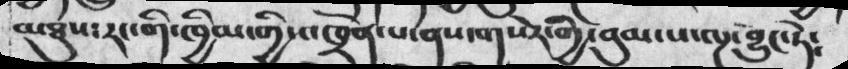མཐུས་རང་གི་ཁྱིམ་གྱིས་ཁྲོན་པ་ནས་གསེར་གྱི་བུམ་པ་ལྔ་བྱུང་ཏེ༴
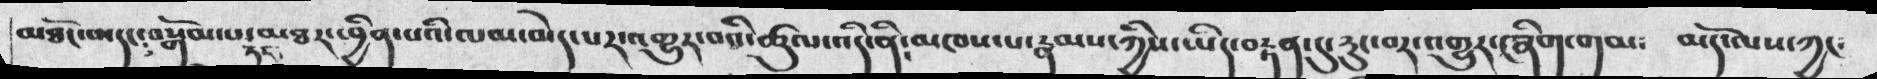མཐོང་བ་དང་བསྒོམ་པ་དང་མཐར་བྱིན་པའི་ལམ་མེད་པར་འགྱུར་བའི་ཚུལ་འདི་ནི༴མཁས་པ་རྣམས་ཀྱིས་ཡིད་བརྟན་དུ་རུང་བར་འགྱུར་ཞིག་གམ༴   མདོ་ལས་ཀྱང༴
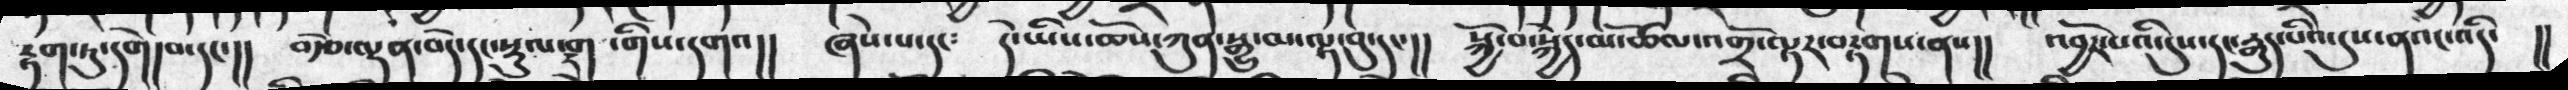རྟག་ཏུ་དགེ་།བ་དང་།།  རྩེ་ལྡན་བདེ་དང་སྡུལ་དྲག་གིས་དགའ།། ཞེས་པ་དང༴ དེ་ཡིས་ཆོས་ཀུན་སྒྱུ་མ་ལྟ་བུ་དང་།།  སྐྱོ་བ་སྐྱེད་མ་ཚོལ་འགྲོ་ལྟར་བརྟགས་ནས།།   འབྱོར་པའི་དུས་དང་རྒྱུད་པའི་དུས་ནའངའདི་  །།
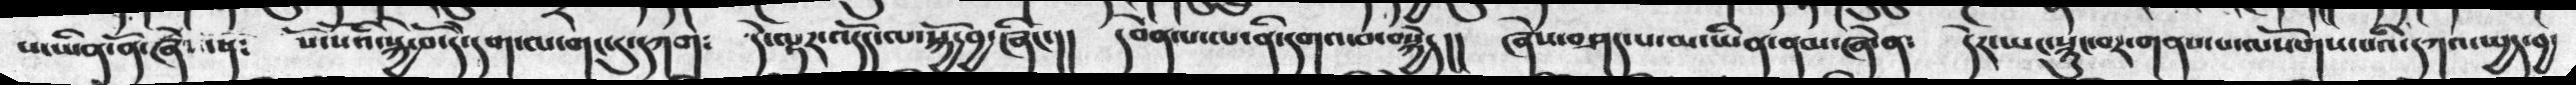པ་ཡིན་ནོ་ཞེས་ན༴   སོ་སོའི་སྐྱེ་བོ་དེ་དག་ལ་གང་དུ་དཀག༴    དེ་ལྟར་འདོད་ལ་འདོད་ལ་སྐྱོ་བྱ་ཞིང་།།  དབེན་པ་ལ་ནི་དགའ་བ་བསྐྱེད།།   ཞེས་བཤད་པ་མ་ཡིན་ནམ་ཞེ་ན་    དེར་ཡང་སྙུང་པར་གནས་པ་ལསོགས་པའི་དཀའ་ཡྱད་བྱ་
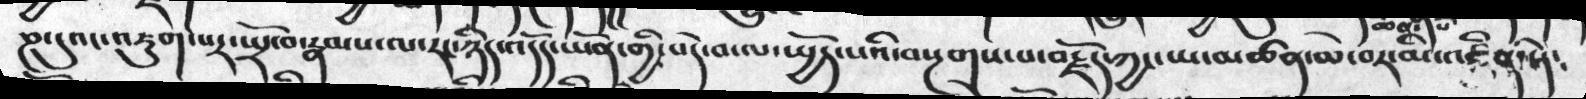ཎ་དུའང་འཇུག་པར་སྤྲོ་བ་རྣམས་པ་ལ་རང་ཉིད་འདོད་ཡོན་གྱི་བདེ་བ་ལ་ཡྱོད་པའི་བསྔགས་པ་བརྗོད་ཀྱང་ཡ་མཚན་མེ་བར་མི་འཛིན་ཏེ༴
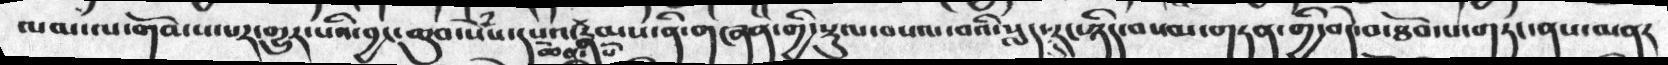ལམ་ལ་གོམས་པར་གྱུར་པའི་བྱང་ཆུབ་སེཾས་དཔའ་ཆེན་པོ་རྣམས་ནི་གཞན་གྱི་སྡུལ་བསལ་བའི་སླད་དུ་རང་ཉིད་བསམ་གཏན་གྱི་བདེ་བ་ཐོབ་པ་གཏང་ནས་མནར་
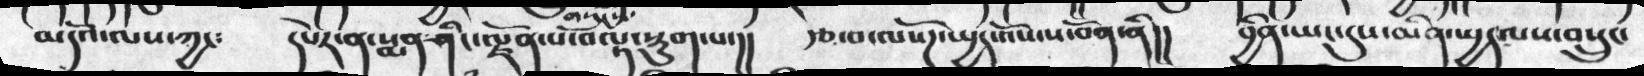མདོའ་ལས་ཀྱང༴    དཔེར་ན་སྨན་ཤིང་ལྗོན་པ་བལྟ་སྡུག་པ་།།    རྩ་བ་ལསོཌ་ཡྱད་འོས་ས་བོན་ནི།།   བྱིན་ཡང་དུས་མིན་ཡྱད་ལས་བསྲུང་
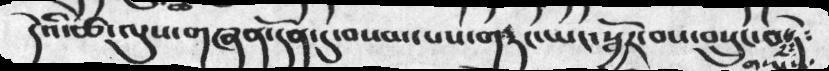དེའི་ཚ་ལུས་གཞན་དོན་དུ་བསམ་པས་གཏང་ཡང་སྦྱོར་བས་བསྲུང་བར་གསང་སྟེ་
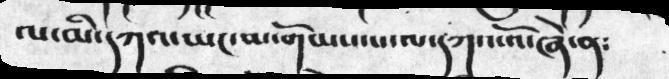ལ་མི་དཀའ་ཡང་མ་གོམས་པ་ལ་དཀའ་འོ་ཞེ་ན༴
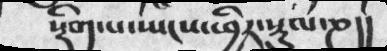སྡིག་པ་སྤངས་ཕྱིར་སྡུལ་ཎ།།
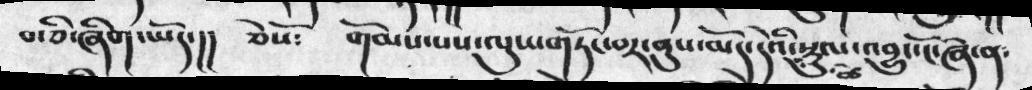པ་ཅི་ཞིག་ཡོད་།།   ཅེསོ༴    གོམས་པས་ལུས་གཏོང་བར་ནུས་མོད་དེའི་སྡུལ་ཚེ་འབྱུང་ངོ་ཞེ་ན༴
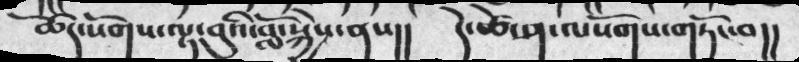ཆོད་སོགས་ལྟ་བུའི་བློ་སྐྱེས་ནས།། དེ་ཚེ་ཤ་ལསོགས་གཏོང་བ།།
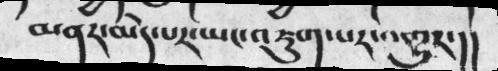མནར་མེད་པར་ཡང་འཇུག་པར་འགྱུར་།།
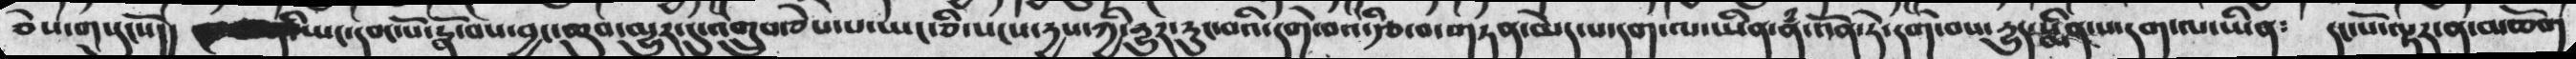ཅེས་གསུངསོ།།   ཡང་དབང་པོ་རྣོ་བས་བྱང་ཆུབ་མྱུར་དུ་འགྲུབ་ཅེས་པ་ཡང་ཅི་སངས་དྱས་ཀྱི་རྱུར་རུང་བའི་དགེ་བའི་རྩ་བ་གཏན་མེད་པ་དག་ལ་ཡིན་ནཾ་འོན་ཏེ་དགེ་བས་རྱུད་སྨིན་པ་དག་ལ་ཡིན་༴  དང་པོ་ལྟར་ན་མཆོག་
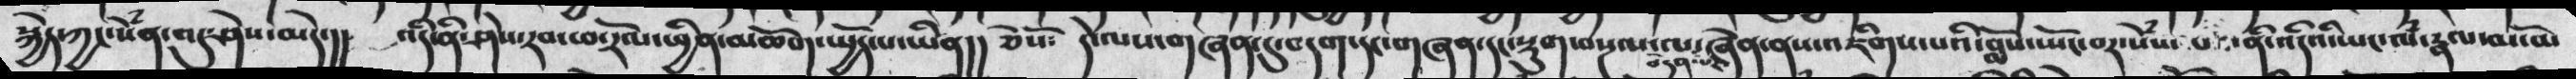སྐྱེད་ཀྱང་སེཾན་འདུ་ཤེས་མེད་།།   འདི་ནི་ཤེས་རབ་ཕ་རོལ་ཕྱིན་མཆོག་ཡྱོད་པ་ཡིན།།  ཅེསོ་  དེ་ལས་གཞན་དུ་བདག་དང་གཞན་དང་སྡུག་བསྔལ་ལ་བདེན་པར་ཞེན་ནས་འཇིགས་པའི་བློས་སྤོང་བར་སེཾས་པ་ནི་འདིའི་ཡང་ལཾ་རྣལ་མ་མོ
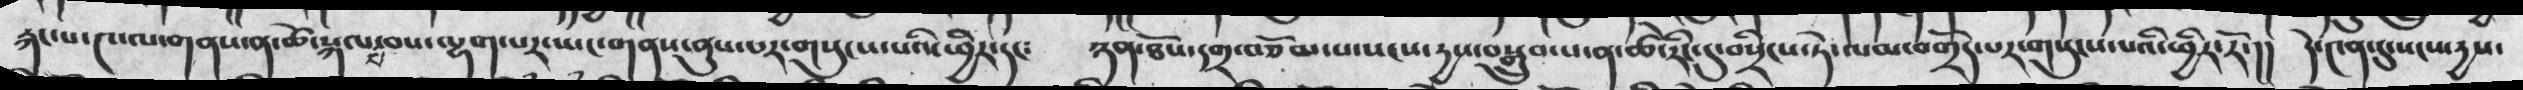རྐང་པ་༤་ལ་གནས་ན་ཚེ་སྐལ་བ་བས་ལྷག་པར་ཡང་གནས་ནུས་པར་གསུངས་པའི་ཕྱིར་དང༴   ཉན་ཐོས་དགྲ་བཅོམ་པ་སངས་དྱས་བསྒྲུབ་པ་ན་ཚེ་རིང་དུ་བསྲིངས་ཏེ་ལམ་བགྲོད་པར་གསུངས་པའི་ཕྱིར་རོ་།།  དེ་༤ན་དུ་སངས་དྱས་
